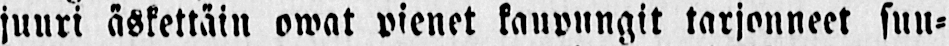juuri äskettäin owat pienet kaupungit tarjonneet suu-
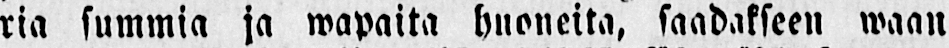ria summia ja wapaita huoneita, saadakseen waan
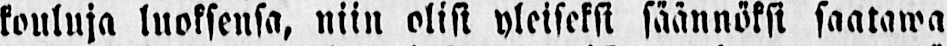kouluja luoksensa, niin olisi yleiseksi säännöksi saatawa
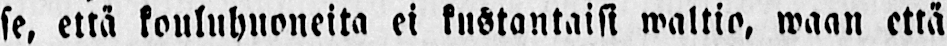se, että kouluhuoneita ei kustantaisi waltio, waan että
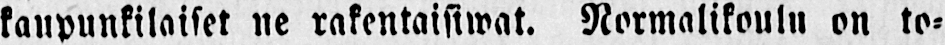kaupunkilaiset ne rakentaisiwat. Normalikoulu on to-
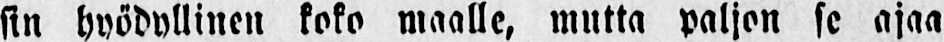sin hyödyllinen koko maalle, mutta paljon se ajaa
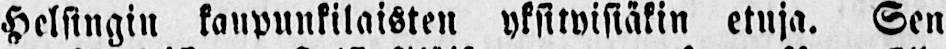Helsingin kaupunkilaisten yksityisiäkin etuja. Sen
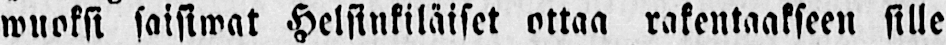wuoksi saisiwat Helsinkiläiset ottaa rakentaakseen sille
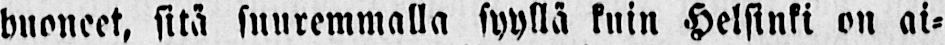huoneet, sitä suuremmalla syyllä kuin Helsinki on ai-
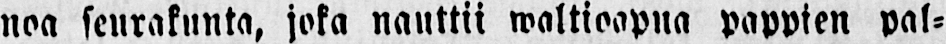noa seurakunta, joka nauttii waltioapua pappien pal-
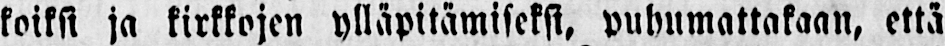koiksi ja kirkkojen ylläpitämiseksi, puhumattakaan, että
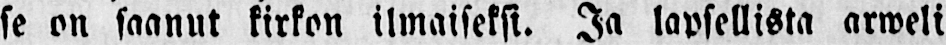se on saanut kirkon ilmaiseksi. Ja lapsellista arweli
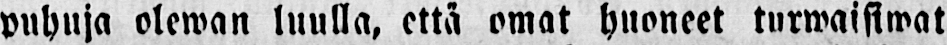puhuja olewan luulla, että omat huoneet turwaisiwat
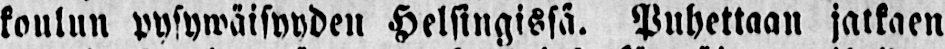koulun pysywäisyyden Helsingissä. Puhettaan jatkaen
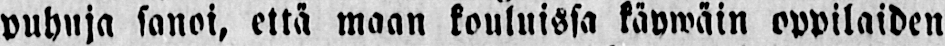puhuja sanoi, että maan kouluissa käywäin oppilaiden
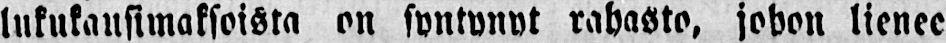lukukausimaksoista on syntynyt rahasto, johon lienee
